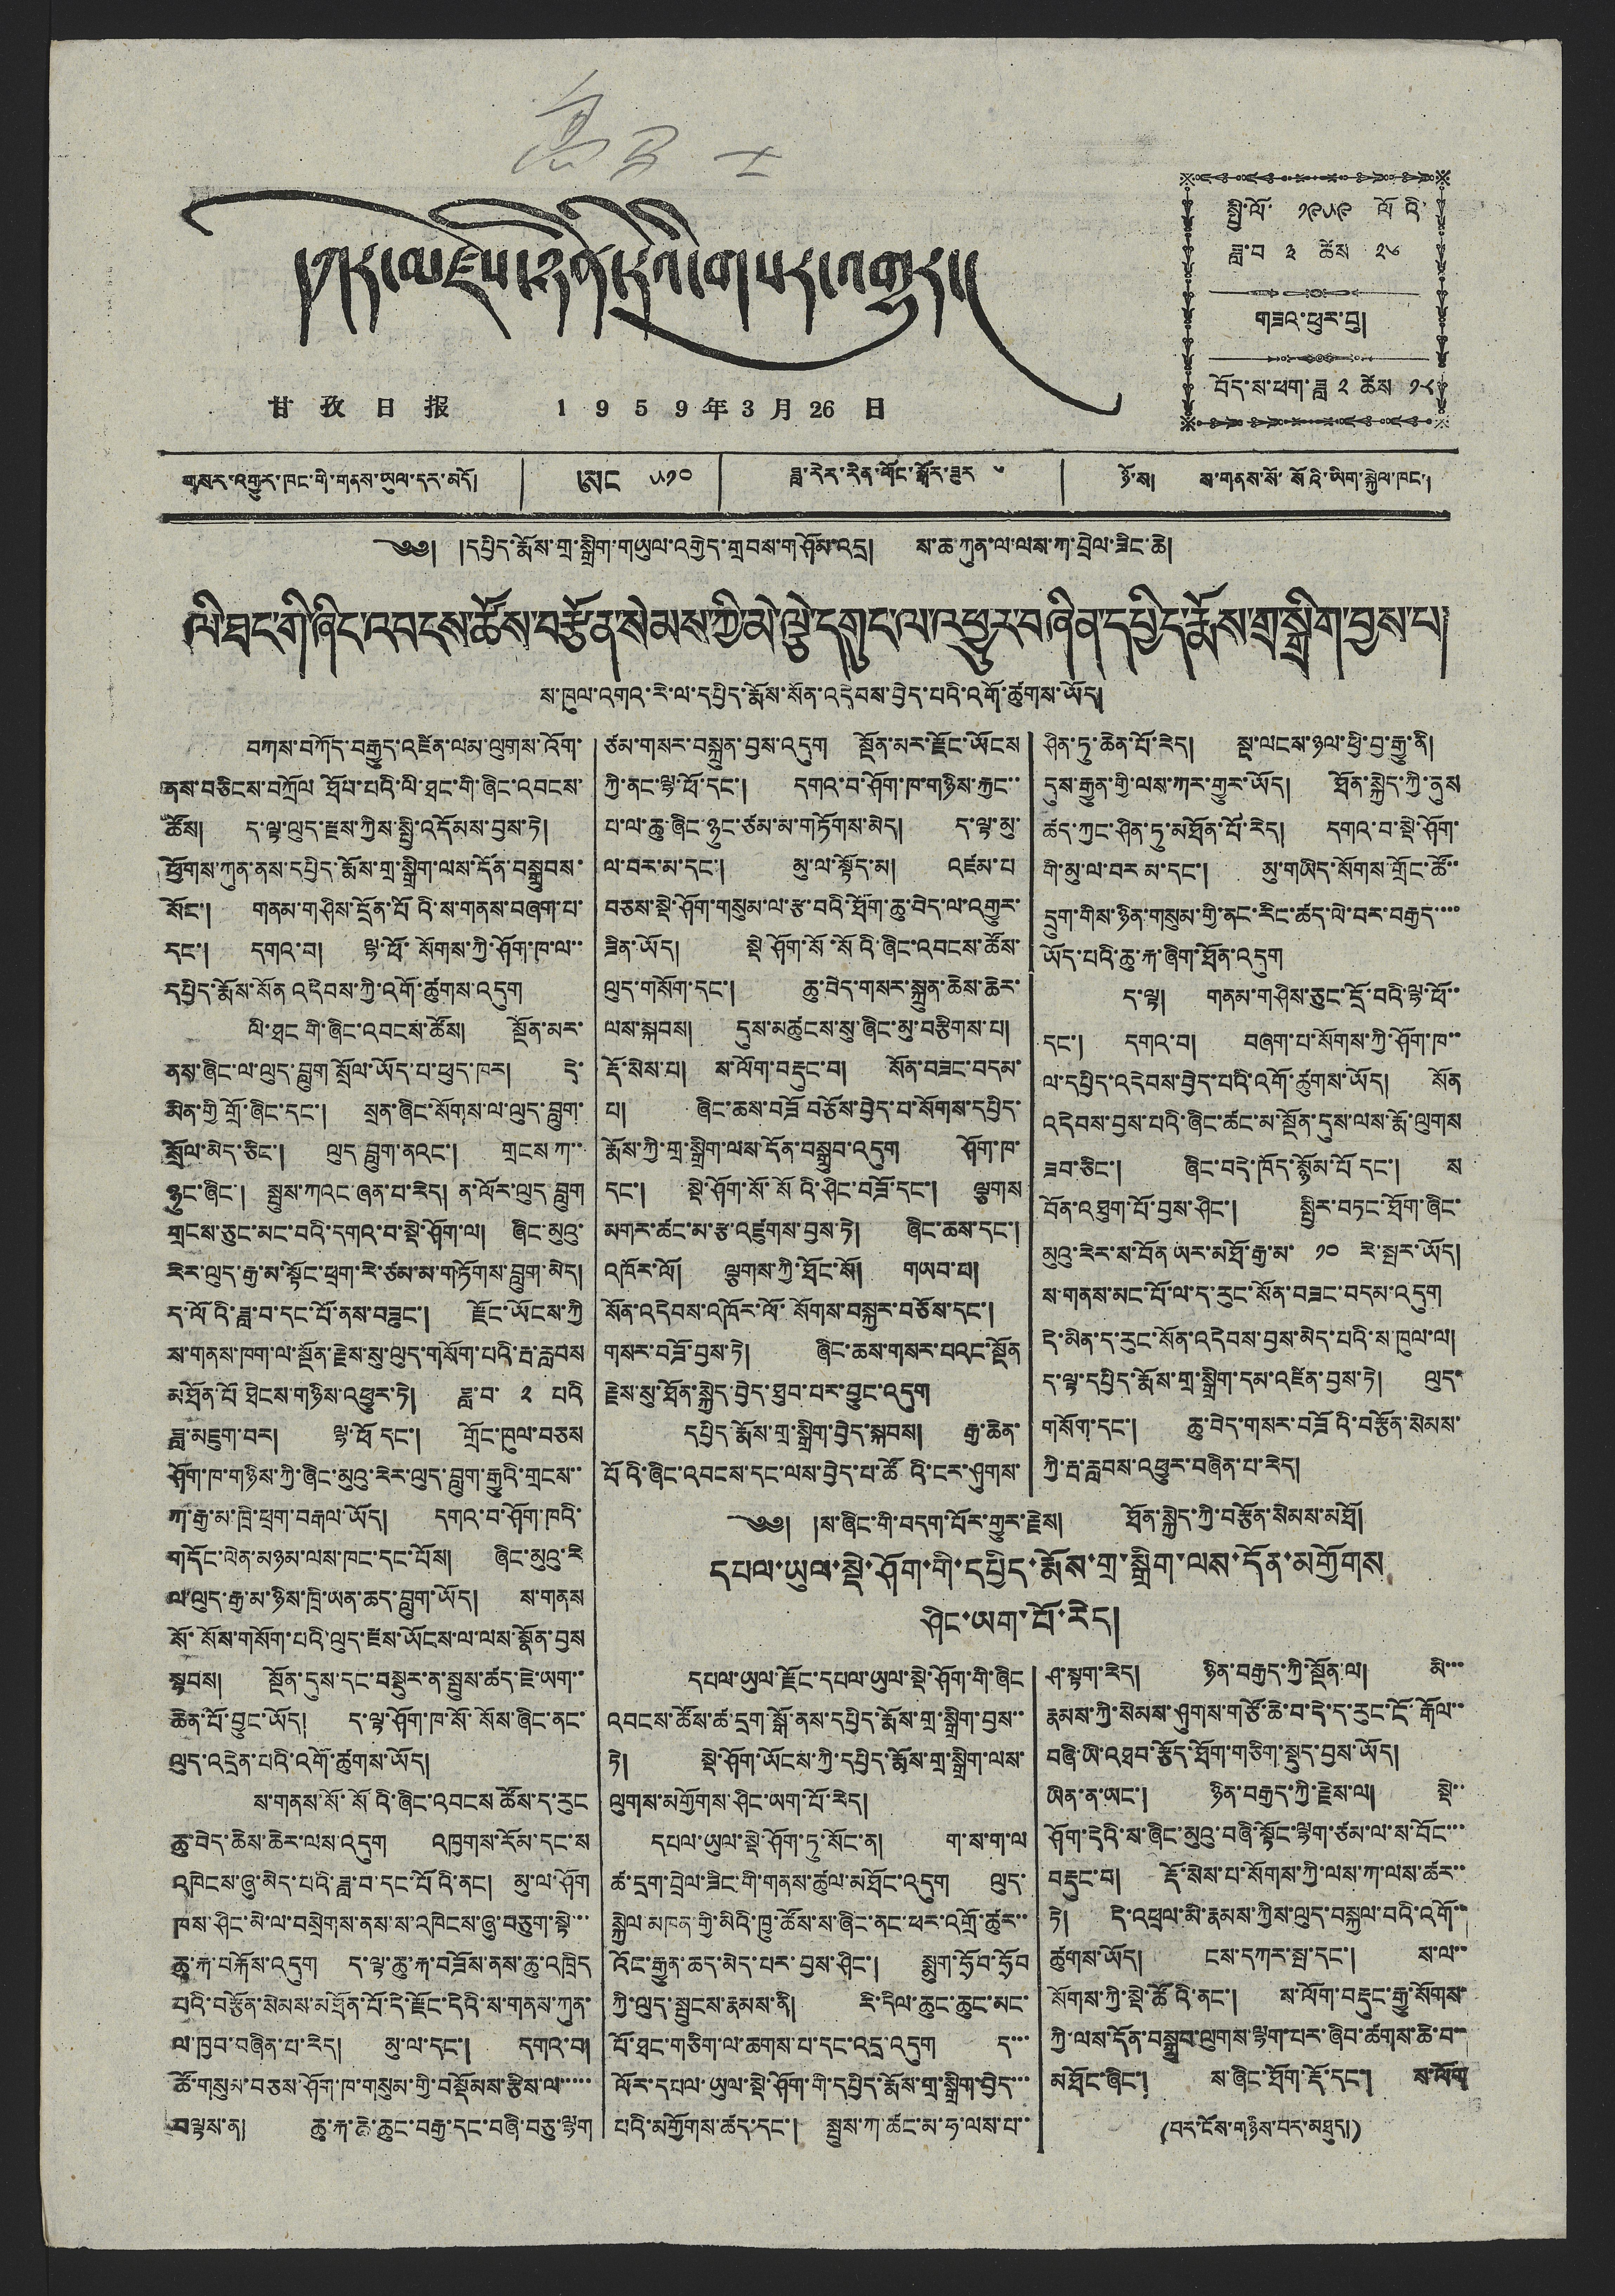དཀར་མཛེས་ཉིན་རེའི་གསར་འགྱུར།
甘 孜 日 报
1 9 5 9 年 3 月 28 日
སྤྱི་ལོ་ ༡༩༥༩ ལོའི
ཟླ་བ ༣ ཚེས ༢༦
གཟའ་ཕུར་བུ།
བོད་ས་ཕག་ཟླ ༢ ཚེས ༡༨།
གསར་འགྱུར་ཁང་གི་གནས་ཡུལ་དར་མདོ།
ཨང ༥༡༠
ཟླ་རེར་རིན་གོང་སྒོར་ཟུར་ ༦
ཉོ་ས། ས་གནས་སོ་སོའི་ཡིག་སྐྱེལ་ཁང་།
༄༅། །དཔྱིད་རྨོས་གྲ་སྒྲིག་གཡུལ་འགྱེད་གྲབས་གཤོམ་འདྲ། ས་ཆ་ཀུན་ལ་ལས་ཀ་བྲེལ་ཟིང་ཆེ།
ལི་ཐང་གི་ཞིང་འབངས་ཚོས་བརྩོན་སེམས་ཀྱི་མེ་ལྕེ་དགུང་ལ་འཕྱུར་བཞིན་དཔྱིད་རྨོས་གྲ་སྒྲིག་བྱས་པ།
ས་ཁུལ་འགའ་རེ་ལ་དཔྱིད་རྨོས་སོན་འདེབས་བྱེད་པའི་འགོ་ཚུགས་ཡོད།
བཀས་བཀོད་བརྒྱུད་འཛིན་ལམ་ལུགས་འོག་
ནས་བཅིངས་བཀྲོལ ཐོབ་པའི་ལི་ཐང་གི་ཞིང་འབངས་
ཚོས། ད་ལྟ་ལུད་རྫས་ཀྱིས་སྤྱི་འདོམས་བྱས་ཏེ།
ཕྱོགས་ཀུན་ནས་དཔྱིད་རྨོས་གྲ་སྒྲིག་ལས་དོན་བསྒྲུབས་
སོང་། གནམ་གཤིས་དྲོན་པོའི་ས་གནས་བཞག་པ་
དང་། དགའ་བ། ལྷ་ཕོ་སོགས་ཀྱི་ཤོག་ཁ་ལ་་
དཔྱིད་རྨོས་སོན འདེབས་ཀྱི་འགོ་ཚུགས་འདུག
ལི་ཐང གི་ཞིང་འབངས་ཚོས། སྔོན་མར་
ནས་ཞིང་ལ་ལུད་བླུག སྲོལ་ཡོད་པ་ཕུད་ཁར། དེ་
མིན་གྱི གྲོ་ཞིང་དང་། སྲན་ཞིང་སོགས་ལ་ལུད་བླུག་
སྲོལ་མེད་ཅིང་། ལུད་བླུག་ནའང་། གྲངས་ཀ་་
ཉུང་ཞིང་། སྤུས་ཀའང་ཞན་པ་རེད། ན་ལོར་ལུད་བླུག
གྲངས་ཅུང་མང་བའི་དགའ་བ་སྡེ་ཤོག་ལ། ཞིང་མུའུ་
རིར་ལུད་རྒྱ་མ་སྟོང་ཕྲག་རེ་ཙམ་མ་གཏོགས་བླུག་མེད།
ད་ལོའི་ཟླ་བ་དང་པོ་ནས་བཟུང་། རྫོང་ཡོངས་ཀྱི
ས་གནས་ཁག་ལ་སྔོན་རྗེས་སུ་ལུད་གསོག་པའི་རྦ་རླབས
མཐོན་པོ་ཐེངས་གཉིས་འཕྱུར་ཏེ། ཟླ་བ་ ༢ པའི
ཟླ་མཇུག་བར། ལྷ་ཕོ དང་། གྲོང་ཁུལ་བཅས
ཤོག་ཁ་གཉིས་ཀྱི་ཞིང་མུའུ་རེར་ལུད་བླུག་རྒྱུའི་གྲངས་་
ཀ་རྒྱ་མ་ཁྲི་ཕྲག་བརྒལ་ཡོད། དགའ་བ་ཤོག་ཁའི་
གདོང་ལེན་མཉམ་ལས་ཁང་དང་པོས། ཞིང་མུའུ་རེ
ལ་ལུད་རྒྱ་མ་ཉིས་ཁྲི་ཡན་ཆད་བླུག་ཡོད། ས་གནས
སོ་སོས་གསོག་པའི་ལུད་རྫས་ཡོངས་ལ་ལས་སྣོན་བྱས
སྟབས། སྔོན་དུས་དང་བསྡུར་ན་སྤུས་ཚད་ཇེ་ཡག་་
ཆེན་པོ་བྱུང་ཡོད། ད་ལྟ་ཤོག་ཁ་སོ་སོས་ཞིང་ནང་
ལུད་འདྲེན་པའི་འགོ་ཚུགས་ཡོད།
ས་གནས་སོ་སོའི་ཞིང་འབངས ཚོས་ད་རུང
ཆུ་བེད་ཆེས་ཆེར་ལས་འདུག འཁྱགས་རོམ་དང་ས
འཁེངས་ཞུ་མེད་པའི་ཟླ་བ་དང་པོའི་ནང། མུ་ལ་ཤོག
ཁས་ཤིང་མེ་ལ་བསྲེགས་ནས་ས་འཁེངས་ཞུ་བཅུག་སྟེ་་་
ཆུ་རྐ་བརྐོས་འདུག ད་ལྟ་ཆུ་རྐ་བཟོས་ནས་ཆུ་འཁྲིད
པའི་བརྩོན་སེམས་མཐོན་པོ་དེ་རྫོང་དེའི་ས་གནས་ཀུན་
ལ་ཁྱབ་བཞིན་པ་རེད། མུ་ལ་དང་། དགའ་བ།
ཚོ་གསུམ་བཅས་ཤོག་ཁ་གསུམ་གྱི་བསྡོམས་རྩིས་ལ་་་་་
བལྟས་ན། ཆུ་རྐ་ཆེ་ཆུང་བརྒྱ་དང་བཞི་བཅུ་ལྷག
ཙམ་གསར་བསྐྲུན་བྱས་འདུག སྔོན་མར་རྫོང་ཡོངས
ཀྱི་ནང་ལྷ་ཕོ་དང་། དགའ་བ་ཤོག་ཁ་གཉིས་རྐྱང་་
པ་ལ་ཆུ་ཞིང་ཉུང་ཙམ་མ་གཏོགས་མེད། ད་ལྟ་མུ་
ལ་བར་མ་དང་། མུ་ལ་སྟོད་མ། འཛམ་པ
བཅས་སྡེ་ཤོག་གསུམ་ལ་རྩ་བའི་ཐོག་ཆུ་བེད་ལ་འགྱུར་
ཟིན་ཡོད། སྡེ་ཤོག་སོ་སོའི་ཞིང་འབངས་ཚོས་
ལུད་གསོག་དང་། ཆུ་བེད་གསར་སྐྲུན་ཆེས་ཆེར་
ལས་སྐབས། དུས་མཚུངས་སུ་ཞིང་མུ་བརྩིགས་པ།
རྡོ་སེས་པ། ས་ལོག་བརྡུང་བ། སོན་བཟང་བདམ་
པ། ཞིང་ཆས་བཟོ བཅོས་བྱེད་པ་སོགས་དཔྱིད་
རྨོས་ཀྱི་གྲ་སྒྲིག་ལས་དོན་བསྒྲུབ་འདུག ཤོག་ཁ་
དང་། སྡེ་ཤོག་སོ་སོའི་ཤིང་བཟོ་དང་། ལྕགས
མགར་ཚང་མ་རྩ་འཛུགས་བྱས་ཏེ། ཞིང་ཆས་དང་།
འཁོར་ལོ། ལྕགས་ཀྱི་ཐོང་སོ། གཡབ་པ།
སོན་འདེབས་འཁོར་ལོ་སོགས་བསྐྱར་བཅོས་དང་།
གསར་བཟོ་བྱས་ཏེ། ཞིང་ཆས་གསར་པའང་སྔོན
རྗེས་སུ་ཐོན་སྐྱེད་བྱེད་ཐུབ་པར་བྱུང་འདུག
དཔྱིད་རྨོས་གྲ་སྒྲིག་བྱེད་སྐབས། རྒྱ་ཆེན་
པོའི་ཞིང་འབངས་དང་ལས་བྱེད་པ་ཚོའི་ངར་ཤུགས་
ཤིན་ཏུ་ཆེན་པོ་རེད། སྔ་ལངས་ཉལ་ཕྱི་བྱ་རྒྱུ་ནི།
དུས་རྒྱུན་གྱི་ལས་ཀར་གྱུར་ཡོད། ཐོན་སྐྱེད་ཀྱི་ནུས
ཚད་ཀྱང་ཤིན་ཏུ་མཐོན་པོ་རེད། དགའ་བ་སྡེ་ཤོག་
གི་མུ་ལ་བར མ་དང་། མུ་གཡིད་སོགས་གྲོང་ཚོ་་
དྲུག་གིས་ཉིན་གསུམ་གྱི་ནང་རིང་ཚད་ལེ་བར་བརྒྱད་་་་
ཡོད་པའི་ཆུ་རྐ་ཞིག་ཐོན་འདུག
ད་ལྟ། གནམ་གཤིས་ཅུང་དྲོ་བའི་ལྷ་ཕོ་་
དང་། དགའ་བ། བཞག་པ་སོགས་ཀྱི་ཤོག་ཁ་་
ལ་དཔྱིད་འདེབས་བྱེད་པའི་འགོ་ཚུགས་ཡོད། སོན
འདེབས་བྱས་པའི་ཞིང་ཚང་མ་སྔོན་དུས་ལས་རྨོ་ལུགས
ཟབ་ཅིང་། ཞིང་བདེ་ཁོད་སྙོམ་པོ དང་། ས
བོན་འཐུག་པོ་བྱས་ཤིང་། སྤྱིར་བཏང་ཐོག་ཞིང་་
མུའུ་རེར་ས་བོན ཡར་མཐོ་རྒྱུ་མ་ ༡༠ རེ་སྤར་ཡོད།
ས་གནས་མང་པོ་ལ་ད་རུང་སོན་བཟང་བདམ་འདུག
དེ་མིན་ད་རུང་སོན་འདེབས་བྱས་མེད་པའི་ས་ཁུལ་ལ།
ད་ལྟ་དཔྱིད་རྨོས་གྲ་སྒྲིག་དམ་འཛིན་བྱས་ཏེ། ལུད་
གསོག་དང་། ཆུ་བེད་གསར་བཟོའི་བརྩོན་སེམས་
ཀྱི་རྦ་རླབས་འཕྱུར་བཞིན་པ་རེད།
༄༅། །ས་ཞིང་གི་བདག་པོར་གྱུར་རྗེས། ཐོན་སྐྱེད་ཀྱི་བརྩོན་སེམས་མཐོ།
དཔལ་ཡུལ་སྡེ་ཤོག་གི་དཔྱིད་རྨོས་གྲ་སྒྲིག་ལས་དོན་མགྱོགས
ཤིང་ཡག་པོ་རེད།
དཔལ་ཡུལ་རྫོང་དཔལ་ཡུལ་སྡེ་ཤོག་གི་ཞིང
འབངས་ཚོས་ཚ་དྲག་སྒོ་ནས་དཔྱིད་རྨོས་གྲ་སྒྲིག་བྱས་་
ཏེ། སྡེ་ཤོག་ཡོངས་ཀྱི་དཔྱིད་རྨོས་གྲ་སྒྲིག་ལས་
ལུགས་མགྱོགས་ཤིང་ཡག་པོ་རེད།
དཔལ་ཡུལ་སྡེ་ཤོག་ཏུ་སོང་ན། ག་ས་ག་ལ་
ཚ་དྲག་བྲེལ་ཟིང་གི་གནས་ཚུལ་མཐོང་འདུག ལུད་
སྐྱེལ་མཁན་གྱི་མིའི་ཁྱུ་ཚོས་ས་ཞིང་ནང་ཕར་འགྲོ་ཚུར་་
འོང་རྒྱུན་ཆད་མེད་པར་བྱས་ཤིང་། སྨུག་ཧྲོབ་ཧྲོབ་
ཀྱི་ལུད་སྤྱངས་རྣམས་ནི། རི་དིལ་ཆུང་ཆུང་མང་
པོ་ཐང་གཅིག་ལ་ཆགས་པ་དང་འདྲ་འདུག ད་་་
ལོར་དཔལ་ཡུལ་སྡེ་ཤོག་གི་དཔྱིད་རྨོས་གྲ་སྒྲིག་བྱེད་་་
པའི་མགྱོགས་ཚད་དང་། སྤུས་ཀ་ཚང་མ་ཧ་ལས་པ་་
ཤ་སྟག་རེད། ཉིན་བརྒྱད་ཀྱི་སྔོན་ལ། མི་་་
རྣམས་ཀྱི་སེམས་ཤུགས་གཙོ་ཆེ་བ་དེ་ད་རུང་ངོ་རྒོལ་་
བཞི་ཡི་འཐབ་རྩོད་ཐོག་གཅིག་སྡུད་བྱས་ཡོད།
ཡིན་ན་ཡང་། ཉིན་བརྒྱད་ཀྱི་རྗེས་ལ། སྡེ་་
ཤོག་དེའི་ས་ཞིང་མུའུ་བཞི་སྟོང་ལྷག་ཙམ་ལ་ས་བོང་་་
བརྡུང་བ། རྡོ་སེས་པ་སོགས་ཀྱི་ལས་ཀ་ལས་ཚར་་
ཏེ། དེ་འཕྲལ་མི་རྣམས་ཀྱིས་ལུད་བསྐྱལ་བའི་འགོ་་
ཚུགས་ཡོད། ངས་དཀར་སྤ་དང་། ས་ལ་་
སོགས་ཀྱི་སྡེ་ཚོའི་ནང་། ས་ལོག་བརྡུང་རྒྱུ་སོགས་
ཀྱི་ལས་དོན་བསྒྲུབ་ལུགས་ལྷག་པར་ཞིབ་ཚགས་ཆེ་བ་
མཐོང་ཞིང་། ས་ཞིང་ཐོག་རྡོ་དང་། ས་ལོག
(པར་ངོས་གཉིས་པར་མཐུད།)
